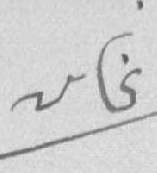༧༦
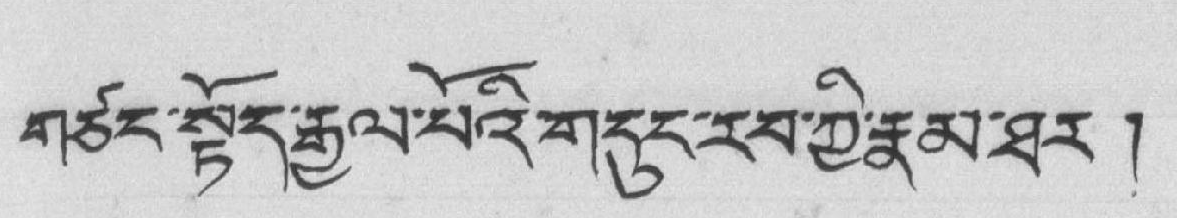གཙང་སྟོད་རྒྱལ་པོའི་གདུང་རབ་ཀྱི་རྣམ་ཐར།
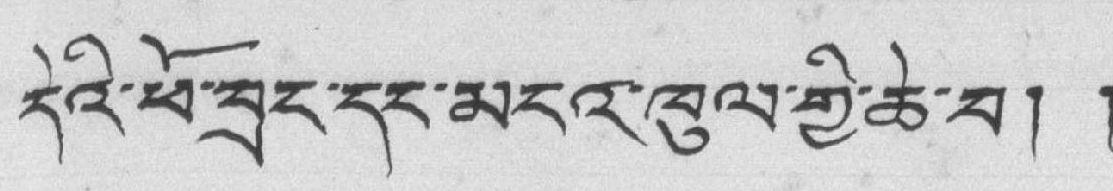དེའི་ཕོ་བྲང་དང་མངའ་ཁུལ་གྱི་ཆེ་བ། །
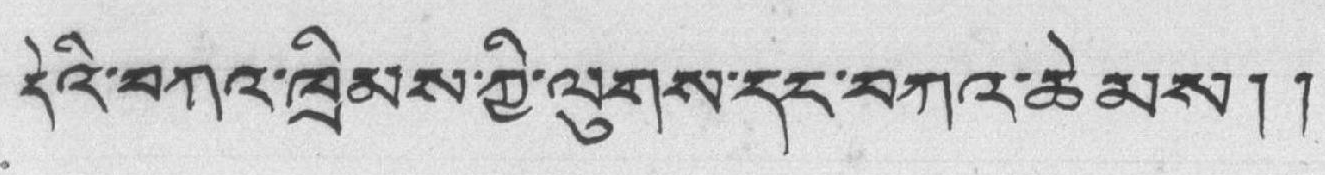དེའི་བཀའ་ཁྲིམས་ཀྱི་ལུགས་དང་བཀའ་ཆེམས།།
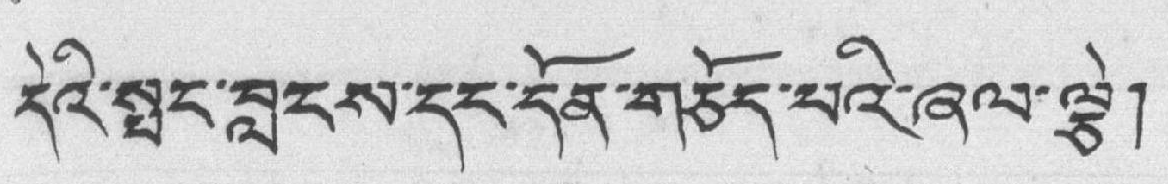དེའི་སྤང་བླངས་དང་དོན་གཅོད་པའི་ཞལ་ལྕེ།
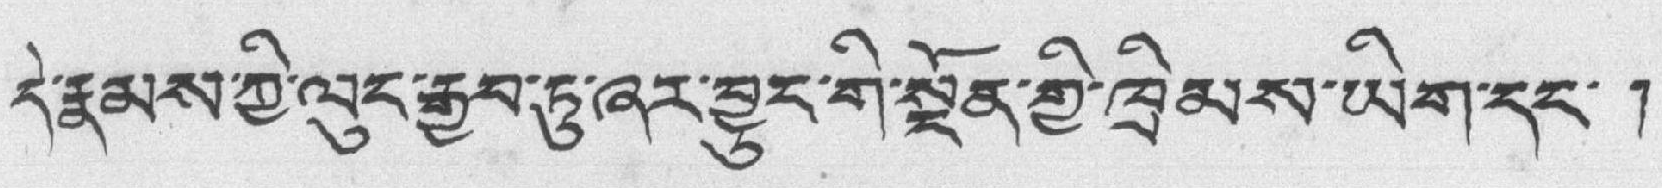དེ་རྣམས་ཀྱི་ལུང་རྒྱབ་ཏུ་ཞར་བྱུང་གི་སྔོན་གྱི་ཁྲིམས་ཡིག་དང་།
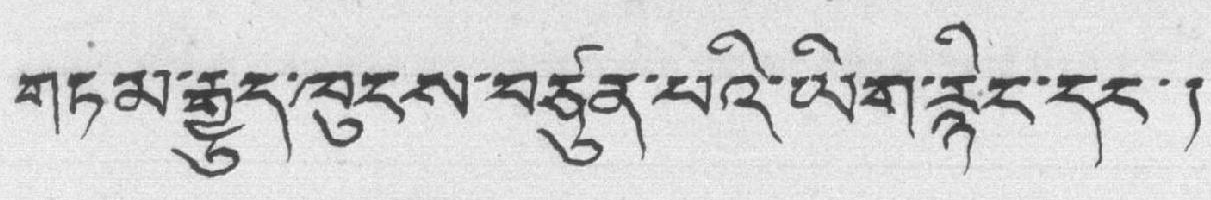གཏམ་རྒྱུད་ཁུངས་བཙུན་པའི་ཡིག་རྙིང་དང་།
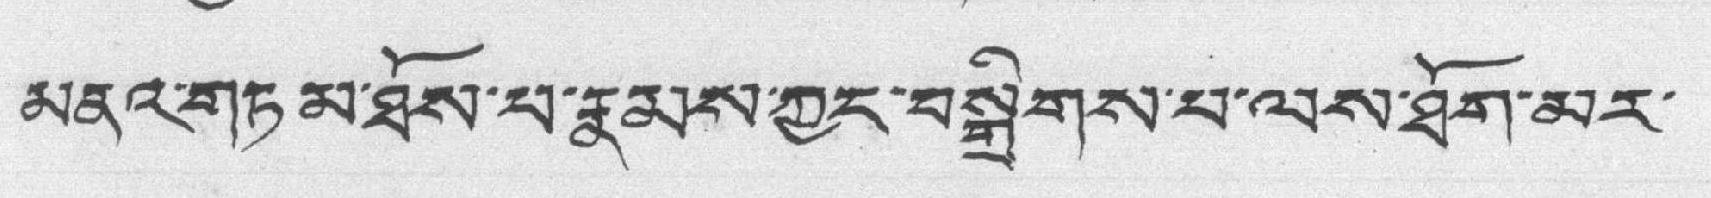མནའ་གཏམ་ཐོས་པ་རྣམས་ཀྱང་བསྒྲིགས་པ་ལས་ཐོག་མར་
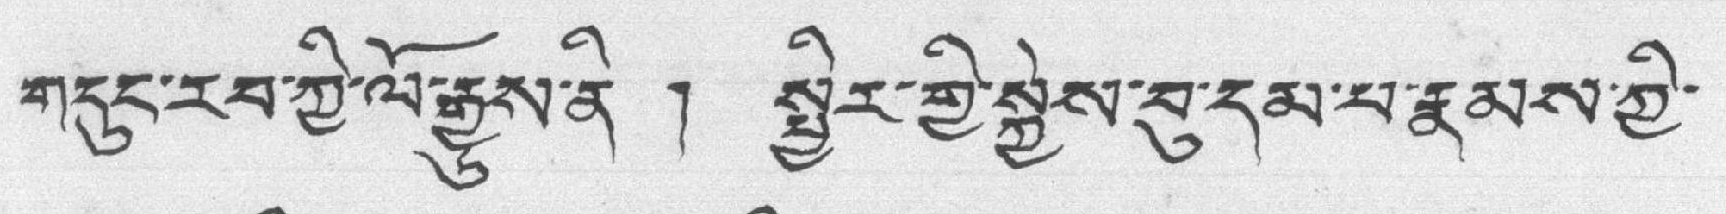གདུང་རབ་ཀྱི་ལོ་རྒྱུས་ནི ། སྤྱིར་གྱི་སྐྱེས་བུ་དམ་པ་རྣམས་ཀྱི་
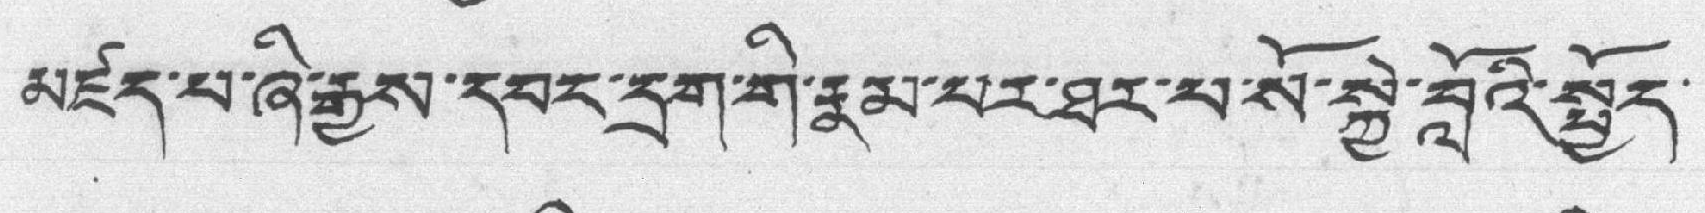མཛད་པ་ཞི་རྒྱས་དབང་དྲག་གི་རྣམ་པར་ཐར་པ་སོ་སྐྱེ་བློའི་སྤྱོད་
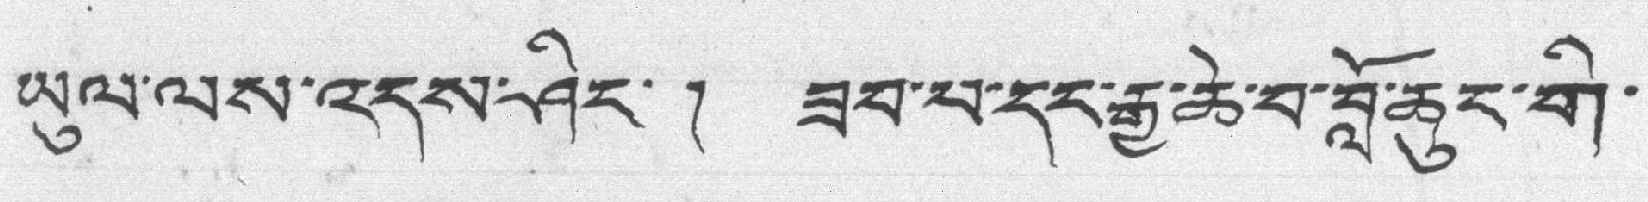ཡུལ་ལས་འདས་ཤིང་། ཟབ་པ་དང་རྒྱ་ཆེ་བ་བློ་ཆུང་གི་
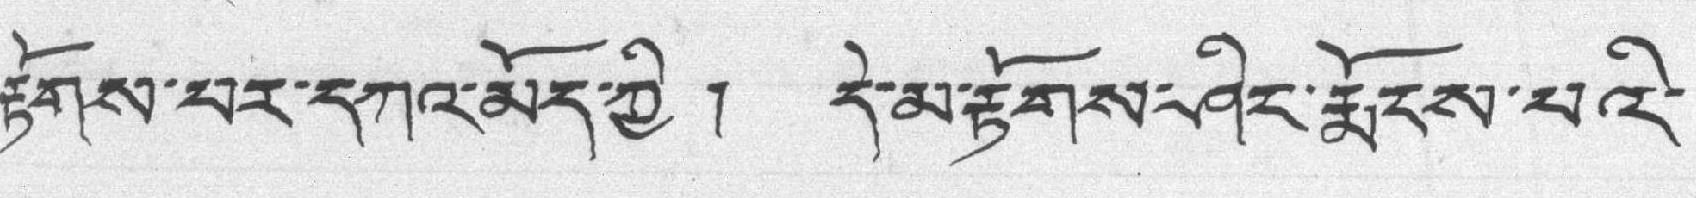རྟོགས་པར་དཀའ་མོད་ཀྱི། དེ་མ་རྟོགས་ཤིང་རྨོངས་པའི་
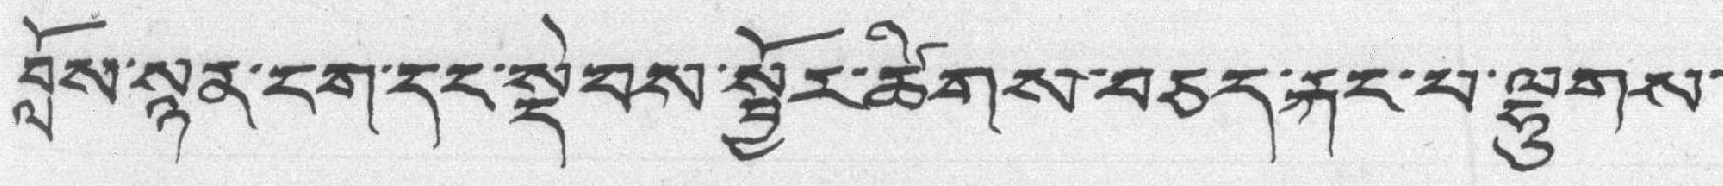བློས་སྙན་ངག་དང་སྡེབས་སྦྱོར་ཚིགས་བཅད་རྐང་པ་ལྷུགས་
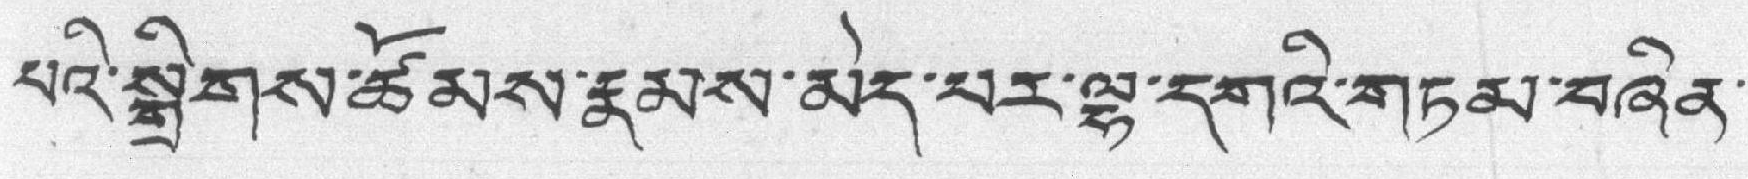པའི་སྒྲིགས་ཚོམས་རྣམས་མེད་པར་ལྷ་དགའི་གཏམ་བཞིན་
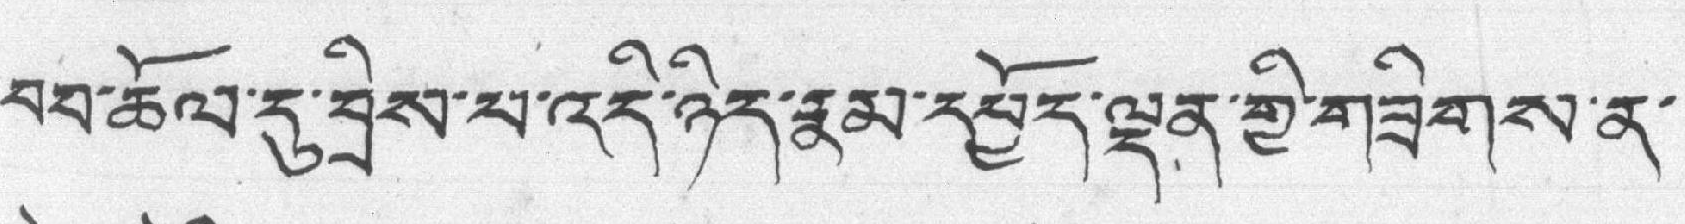བབ་ཆོལ་དུ་བྲིས་པ་འདི་ཉིད་རྣམ་དཔྱོད་ལྡན་གྱི་གཟིགས་ན་
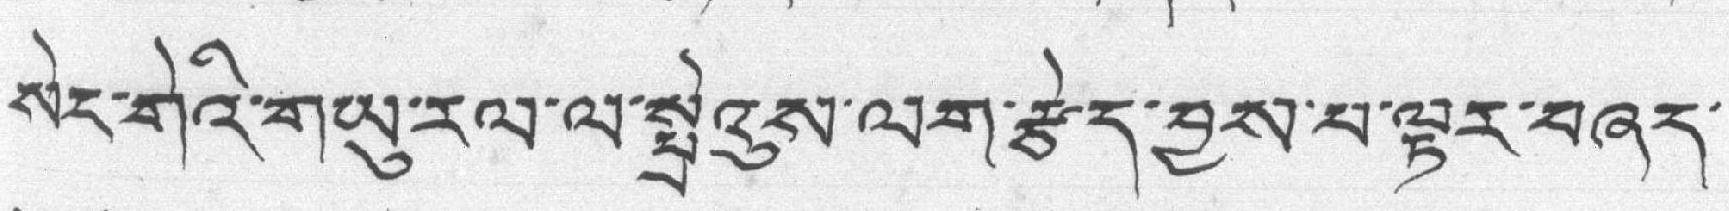སེང་གེའི་གཡུ་རལ་ལ་སྤྲེའུས་ལག་རྩེད་བྱས་པ་ལྟར་བཞད་
